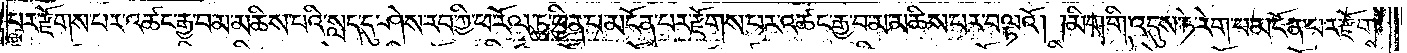པར་རྫོགས་པར་འཚང་རྒྱ་བ་མ་མཆིས་པའི་སླད་དུ་ཤེས་རབ་ཀྱི་ཕ་རོལ་ཏུ་ཕྱིན་པ་མངོན་པར་རྫོགས་པར་འཚང་རྒྱ་བ་མ་མཆིས་པར་བལྟའོ། །མིག་གི་འདུས་ཏེ་རེག་པ་མངོན་པར་རྫོགས་
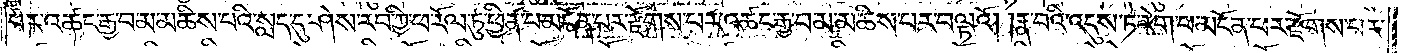པར་འཚང་རྒྱ་བ་མ་མཆིས་པའི་སླད་དུ་ཤེས་རབ་ཀྱི་ཕ་རོལ་ཏུ་ཕྱིན་པ་མངོན་པར་རྫོགས་པར་འཚང་རྒྱ་བ་མ་མཆིས་པར་བལྟའོ། །རྣ་བའི་འདུས་ཏེ་རེག་པ་མངོན་པར་རྫོགས་པར་
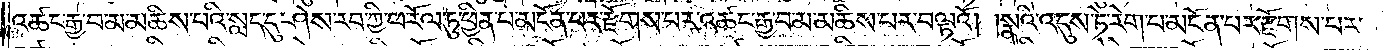འཚང་རྒྱ་བ་མ་མཆིས་པའི་སླད་དུ་ཤེས་རབ་ཀྱི་ཕ་རོལ་ཏུ་ཕྱིན་པ་མངོན་པར་རྫོགས་པར་འཚང་རྒྱ་བ་མ་མཆིས་པར་བལྟའོ། །སྣའི་འདུས་ཏེ་རེག་པ་མངོན་པར་རྫོགས་པར་
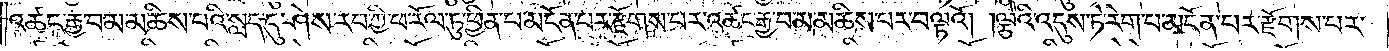འཚང་རྒྱ་བ་མ་མཆིས་པའི་སླད་དུ་ཤེས་རབ་ཀྱི་ཕ་རོལ་ཏུ་ཕྱིན་པ་མངོན་པར་རྫོགས་པར་འཚང་རྒྱ་བ་མ་མཆིས་པར་བལྟའོ། །ལྕེའི་འདུས་ཏེ་རེག་པ་མངོན་པར་རྫོགས་པར་
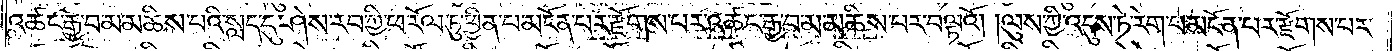འཚང་རྒྱ་བ་མ་མཆིས་པའི་སླད་དུ་ཤེས་རབ་ཀྱི་ཕ་རོལ་ཏུ་ཕྱིན་པ་མངོན་པར་རྫོགས་པར་འཚང་རྒྱ་བ་མ་མཆིས་པར་བལྟའོ། །ལུས་ཀྱི་འདུས་ཏེ་རེག་པ་མངོན་པར་རྫོགས་པར་
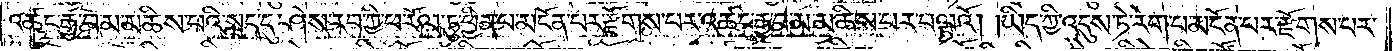འཚང་རྒྱ་བ་མ་མཆིས་པའི་སླད་དུ་ཤེས་རབ་ཀྱི་ཕ་རོལ་ཏུ་ཕྱིན་པ་མངོན་པར་རྫོགས་པར་འཚང་རྒྱ་བ་མ་མཆིས་པར་བལྟའོ། །ཡིད་ཀྱི་འདུས་ཏེ་རེག་པ་མངོན་པར་རྫོགས་པར་
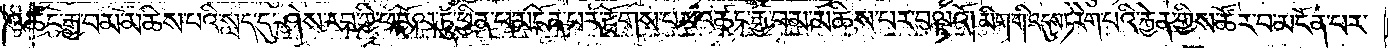འཚང་རྒྱ་བ་མ་མཆིས་པའི་སླད་དུ་ཤེས་རབ་ཀྱི་ཕ་རོལ་ཏུ་ཕྱིན་པ་མངོན་པར་རྫོགས་པར་འཚང་རྒྱ་བ་མ་མཆིས་པར་བལྟའོ། །མིག་གི་འདུས་ཏེ་རེག་པའི་རྐྱེན་གྱིས་ཚོར་བ་མངོན་པར་
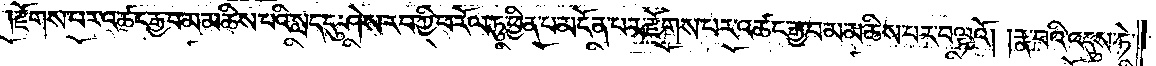རྫོགས་པར་འཚང་རྒྱ་བ་མ་མཆིས་པའི་སླད་དུ་ཤེས་རབ་ཀྱི་ཕ་རོལ་ཏུ་ཕྱིན་པ་མངོན་པར་རྫོགས་བར་འཚང་རྒྱ་བ་མ་མཆིས་པར་བལྟའོ། །རྣ་བའི་འདུས་ཏེ་
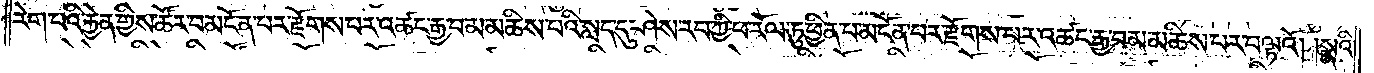རེག་པའི་རྐྱེན་གྱིས་ཚོར་བ་མངོན་པར་རྫོགས་པར་འཚང་རྒྱ་བ་མ་མཆིས་པའི་སླད་དུ་ཤེས་རབ་ཀྱི་ཕ་རོལ་ཏུ་ཕྱིན་པ་མངོན་པར་རྫོགས་པར་འཚང་རྒྱ་བ་མ་མཆིས་པར་བལྟའོ། །སྣའི་
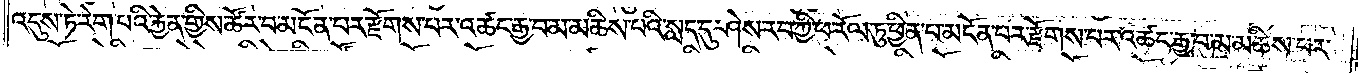འདུས་ཏེ་རེག་པའི་རྐྱེན་གྱིས་ཚོར་བ་མངོན་པར་རྫོགས་པར་འཚང་རྒྱ་བ་མ་མཆིས་པའི་སླད་དུ་ཤེས་རབ་ཀྱི་ཕ་རོལ་ཏུ་ཕྱིན་པ་མངོན་པར་རྫོགས་པར་འཚང་རྒྱ་བ་མ་མཆིས་པར་
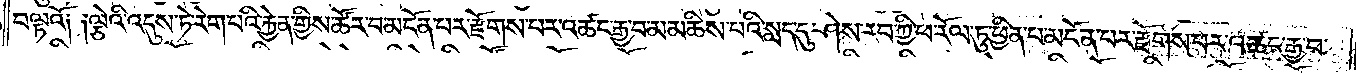བལྟའོ༑ ༑ལྕེའི་འདུས་ཏེ་རེག་པའི་རྐྱེན་གྱིས་ཚོར་བ་མངོན་པར་རྫོགས་པར་འཚང་རྒྱ་བ་མ་མཆིས་པའི་སླད་དུ་ཤེས་རབ་ཀྱི་ཕ་རོལ་ཏུ་ཕྱིན་པ་མངོན་པར་རྫོགས་པར་འཚང་རྒྱ་བ་
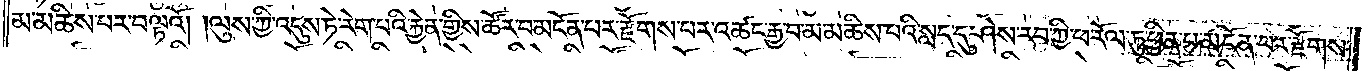མ་མཆིས་པར་བལྟའོ། །ལུས་ཀྱི་འདུས་ཏེ་རེག་པའི་རྐྱེན་གྱིས་ཚོར་བ་མངོན་པར་རྫོགས་པར་འཚང་རྒྱ་བ་མ་མཆིས་པའི་སླད་དུ་ཤེས་རབ་ཀྱི་ཕ་རོལ་ཏུ་ཕྱིན་པ་མངོན་པར་རྫོགས་
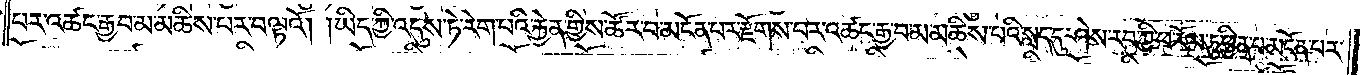པར་འཚང་རྒྱ་བ་མ་མཆིས་པར་བལྟའོ། །ཡིད་ཀྱི་འདུས་ཏེ་རེག་པའི་རྐྱེན་གྱིས་ཚོར་བ་མངོན་པར་རྫོགས་པར་འཚང་རྒྱ་བ་མ་མཆིས་པའི་སླད་དུ་ཤེས་རབ་ཀྱི་ཕ་རོལ་ཏུ་ཕྱིན་པ་མངོན་པར་
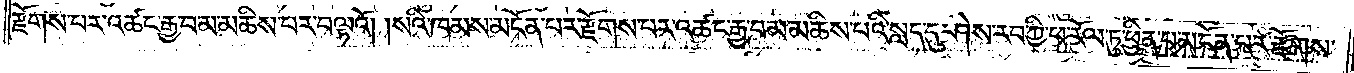རྫོགས་པར་འཚང་རྒྱ་བ་མ་མཆིས་པར་བལྟའོ། །སའི་ཁམས་མངོན་པར་རྫོགས་པར་འཚང་རྒྱ་བ་མ་མཆིས་པའི་སླད་དུ་ཤེས་རབ་ཀྱི་ཕ་རོལ་ཏུ་ཕྱིན་པ་མངོན་པར་རྫོགས་
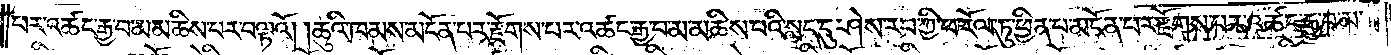པར་འཚང་རྒྱ་བ་མ་མཆིས་པར་བལྟའོ། །ཆུའི་ཁམས་མངོན་པར་རྫོགས་པར་འཚང་རྒྱ་བ་མ་མཆིས་པའི་སླད་དུ་ཤེས་རབ་ཀྱི་ཕ་རོལ་ཏུ་ཕྱིན་པ་མངོན་པར་རྫོགས་པར་འཚང་རྒྱ་བ་མ་
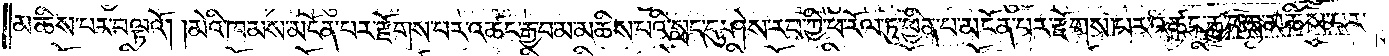མཆིས་པར་བལྟའོ། །མེའི་ཁམས་མངོན་པར་རྫོགས་པར་འཚང་རྒྱ་བ་མ་མཆིས་པའི་སླད་དུ་ཤེས་རབ་ཀྱི་ཕ་རོལ་ཏུ་ཕྱིན་པ་མངོན་པར་རྫོགས་པར་འཚང་རྒྱ་བ་མ་མཆིས་པར་
